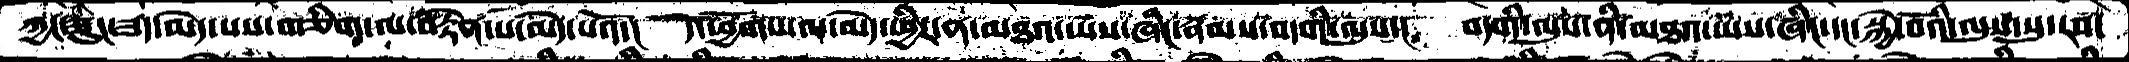ཀྱང་ཅུང་ཟད་མེད་པས་གཅིག་ལ་བརྟེན་པ་མེད་པའོ་།  དེ་ཕྱོགས་ལ་མེད་ཕྱིར་ན་མཐའ་ཡས་ཞིང་རྣམས་བདགི་ལུས་།  བདགི་ལུས་ནི་མཐའ་ཡས་ཞིང་དང་སྐྱེ་བོའི་ལུས་སུ་རབ་
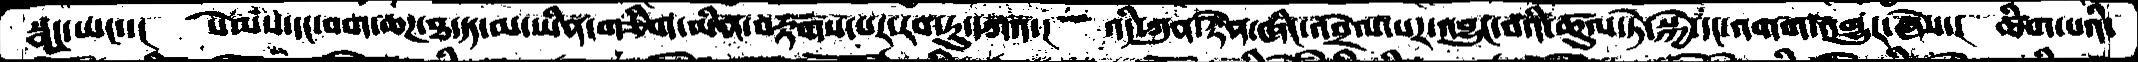སྣང་ཡང་་།   སེམས་དང་བག་ཆཌ་ཐ་དད་མ་ཡིན་གཅིག་མིན་བརྟགས་པར་རབ་ཏུ་དཀའ་།   འདི་ཀུན་རྟེན་ཞིང་འབྲེལ་པར་འབྱུང་བའི་ཚུལ་ཏེ་སྐྱེ་དང་འགག་གྱུར་ཞེས་།   ཚིག་པའི་
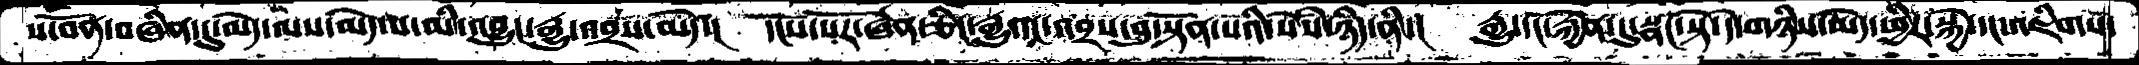ས་བོན་བཞིན་དུ་མེད་ལས་མེད་པ་མི་འབྱུང་རྒྱུ་འབྲས་མེད་།   དངོས་པོར་ཞེན་ཅིང་རྒྱུ་དང་འབྲས་བུ་སྟོན་པའི་སེཾས་ཉིད་ནི་།   རྒྱུ་དང་རྐྱེན་དུ་སྣང་སྟེ་དེ་གཉིས་མེད་ཕྱིར་སྐྱེ་དང་འཇིགས་
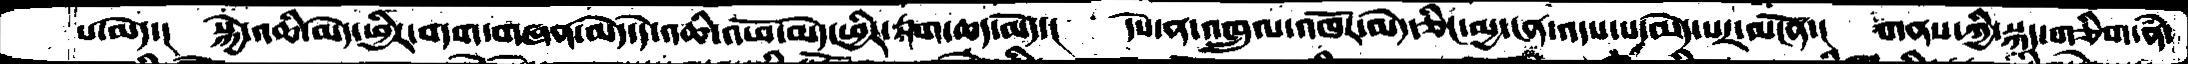པ་མེད་།   སྐྱེ་འཆི་མེད་ཕྱིར་བདག་གཞན་མེད་དེ་འཆི་འཕོ་མེད་ཕྱིར་རྟག་ཆད་མེད་།   དེས་ན་འཁྲུལ་འཁོར་མེད་ཅིང་མྱ་ངན་འདས་པ་མེད་པར་མངོན་།  གནས་ཀྱི་སྐད་གཅིག་ནཾ་
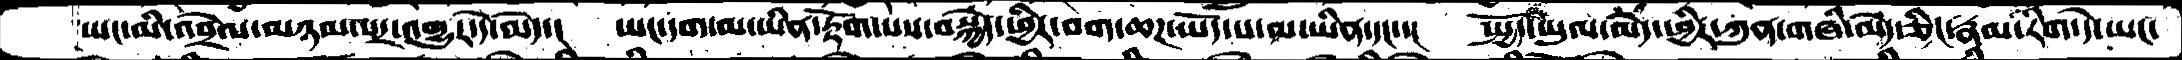ཡང་མི་འབྲེལ་མཉམ་པར་འགྱུར་དེ་མེད་།   ཡང་དག་མ་ཡིན་རྟོག་པས་བསྐྱེད་ཕྱིར་བག་ཆཌ་ཡོད་པ་མ་ཡིན་དང་་།   སྤྱོད་ཡུལ་མེད་ཕྱིར་ཀུན་གཞི་མེད་ཅིང་རྣམ་རིག་དེ་ཡང་
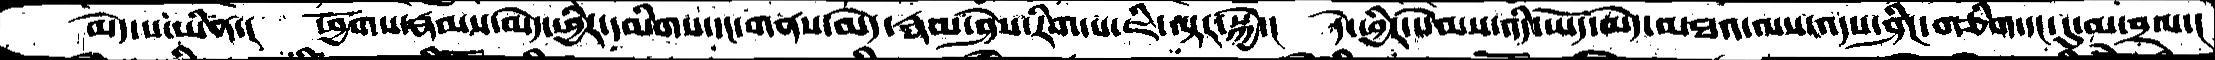མེད་པ་ཡིན་།   ཕྱོགས་རྣམས་མེད་ཕྱིར་དམིགས་དང་གནས་མེད་རྣམ་ཤེས་རིག་པ་ཇི་ལྟར་སྐྱེ་།   དེ་ཕྱིར་སེམས་འདི་ཡོད་མེད་མཐའ་ལས་འདས་ཤིང་གཅིག་དང་དུ་མ་བྲལ་།
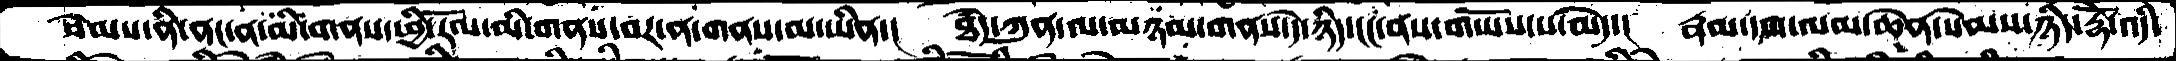སེམས་ནི་ནང་ན་མི་གནས་ཕྱི་རོལ་མི་གནས་བར་ན་གནས་མ་ཡིན་། ཐཾད་ཀུན་ལ་མཉམ་གནས་དེ་ཉིད་ངང་ནས་གཡོས་པ་མེད་།  རྣམ་དག་ལམ་ཆེན་སེམས་ཉིད་རྡོེ་འདི་
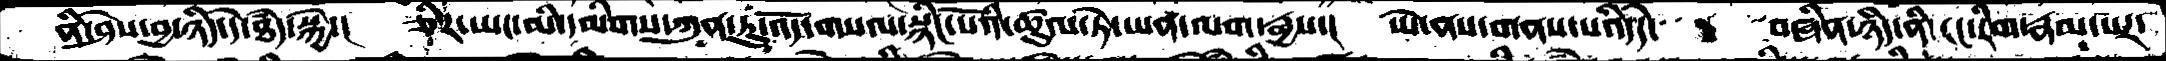ནི་ཤེས་བྱ་ཉིད་དེ་ཐཾད་སྐྱེ་།  ཅིར་ཡང་མི་དམིགས་ཀུན་ཏུ་འོད་གསལ་སྙིང་པོའི་ཚུལ་ཏེ་ཡན་ལག་རྒྱས་།  ཡེ་ནས་གནས་པའི་དེ་  བཞིན་ཉིད་ནི་རང་རིག་རྣམ་པར་
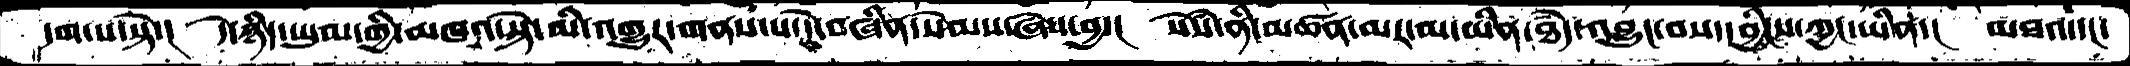དག་པ་སྟེ་།  དེ་ཉིད་ཡུལ་གྱི་མཁའ་སྟེ་མི་འགྱུར་གནས་པ་དེ་བཞིན་སེམས་ཞེས་བྱ་།  སེཾས་ནི་མཚན་མར་མ་ཡིན་ཐཾད་འབྱུང་བས་དབྱིངས་ཀྱང་ཡིན་།  མཐའ་དང་
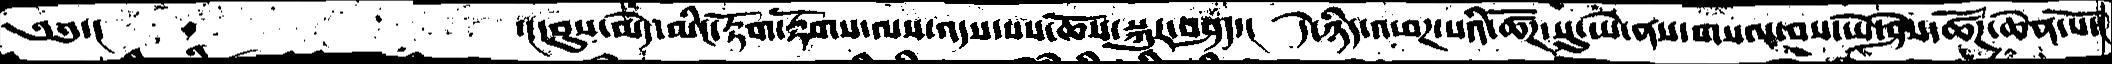༄༅་།           ་།དབུས་མེད་མིང་རྟོག་རྟོགས་ལས་འདས་པས་ཆོས་སྐུར་བཤད་།  དེ་ཉིད་འཕཌ་པའི་ཚོཌ་སུ་ཡེ་ནས་གསལ་་བས་ཡེ་ཤེས་ཚོཌ་ཆེན་པོ་།
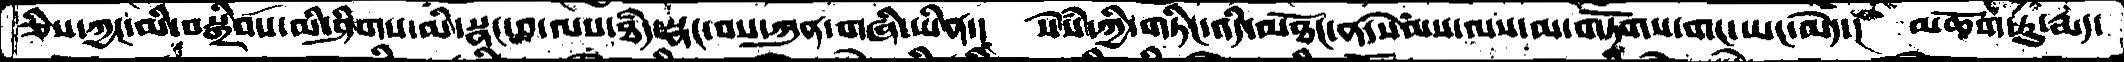ཅིས་ཀྱང་མི་བསྒྲིབས་མི་ཤིགས་མི་སྣང་བ་ལས་ཐཾད་སྣང་བས་ཀུན་གཞི་ཡིན་།  སེཾས་ཀྱི་གཏིང་འདི་མཐོང་ན་སེཾས་ལས་མ་གཏོགས་གང་ཡང་མེེད་།  མཆོག་ཏུ་རྨད་
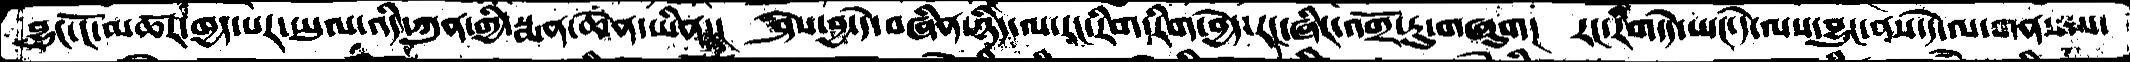བྱུང་ངོ་མཚར་ཁྱད་པར་ཡུལ་འདི་ཀུན་གྱི་སྨན་ཆེན་ཡིན་།  ཤེས་བྱ་དེ་བཞིན་ཉིད་ལ་རང་རིག་རིག་བྱེད་རང་ཞིང་འགྲོ་་ཏུ་གཞུག་།  རང་རིག་དེ་ཡང་དེ་ལས་བྱུང་ནས་དེ་ལ་གནས་པ་
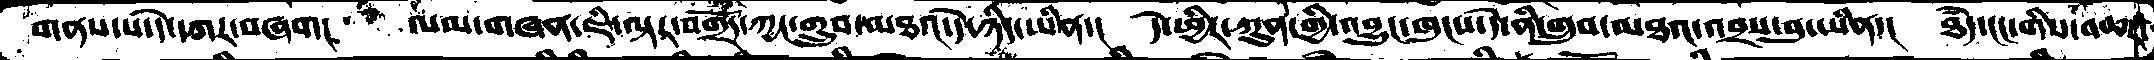གནས་པ་དེ་དཀར་བཞག།  ལམ་གཞན་ཇི་ལྟར་བགྲོད་ཀྱང་གྲུབ་མཐའ་དེ་ཉིད་ཡིན་།  དེ་ཕྱིར་ཀུན་གྱི་འབྱུང་ཁུངས་དེ་ནི་གྲུབ་མཐའ་འབྲས་བུ་ཡིན་།  ཐཾད་ངང་གིས་འཆར
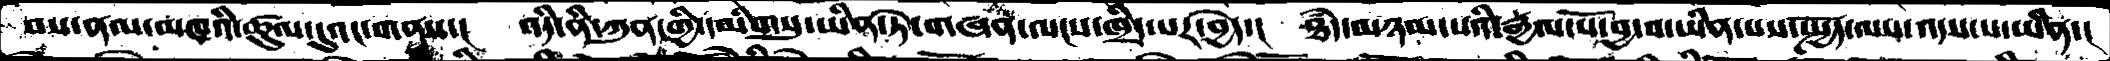བས་ནམ་མཁའི་ཚུལ་དུའང་གནས་།  འདི་ནི་ཀུན་གྱི་དམིགསུ་་ཡིན་ཏེ་གཞན་ལངས་ཁྲིད་པར་བྱེད་།  ཐཾད་མཉམ་པའི་རྒྱལ་པོ་བྱ་བ་ཡིན་པས་སྤྱོད་ལས་འདས་པ་ཡིན་།
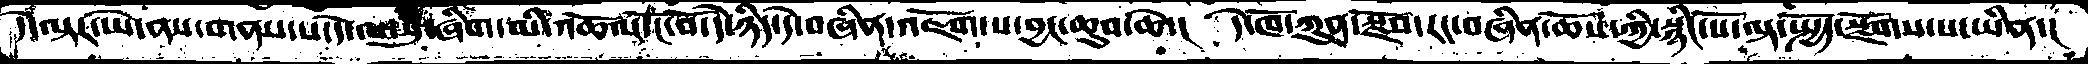དེ་ལྟར་ཡེ་ནས་གནས་པ་དེ་ལ་སུ་ཞིག་མི་འཆོལ་ངོ་བོ་དེ་ཉིད་དེ་བཞིན་འཇོག་པ་བྱང་ཆུབ་ཆེ་།  དེ་ཁོ་ཀུན་སྫོབ་རང་བཞིན་ཆོས་ཀྱི་སྙིང་པོ་ལྟ་སྤྱོད་སྫོགས་པ་ཡིན་།
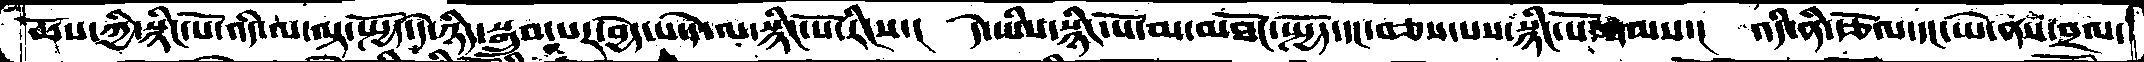ཆོས་ཀྱི་སྙིང་པོ་འདི་ལ་ལྟ་སྤྱོད་དེ་ཉིད་སྒྲུབ་པར་བྱེད་པ་དེ་ལ་སྙིང་པོ་རིངས་།  དེ་ཡིས་སྙིང་པོ་མ་མཐོང་སྤྱོད་དང་བཅས་པས་སྙིང་པོ་རྣམས་།  འདི་ནི་རྩོལ་དང་ཡེ་ནས་བྲལ་
